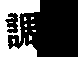調
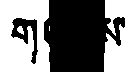ག   ས་
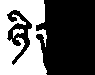ཉིད་
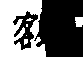客
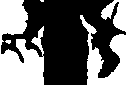རང་
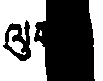ལུང
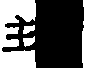主
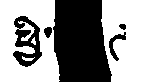ཕྱི་  ཊ
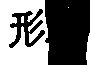形
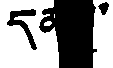དམ  ་
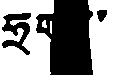ཧྲག  ་་
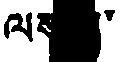ལས  ་
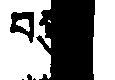བ
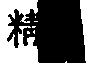精
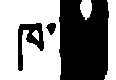ཁ་
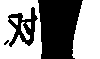对
